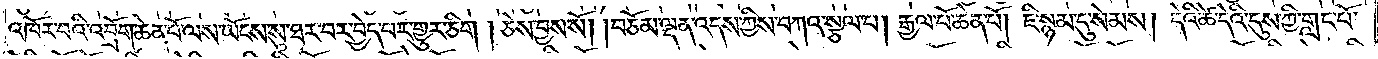འཁོར་བའི་འབྲོག་ཆེན་པོ་ལས་ཡོངས་སུ་ཐར་པར་བྱེད་པར་གྱུར་ཅིག །ཅེས་བྱས་སོ། །བཅོམ་ལྡན་འདས་ཀྱིས་བཀའ་སྩལ་པ། རྒྱལ་པོ་ཆེན་པོ། ཇི་སྙམ་དུ་སེམས། དེའི་ཚེ་དེའི་དུས་ཀྱི་གླང་པོ་
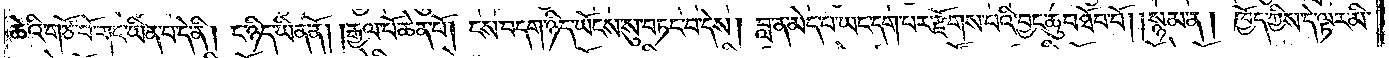ཆེའི་གཙོ་བོ་གང་ཡིན་པ་དེ་ནི། ང་ཉིད་ཡིན་ནོ། །རྒྱལ་པོ་ཆེན་པོ། ངས་བདག་ཉིད་ཡོངས་སུ་བཏང་བ་དེས། བླ་ན་མེད་པ་ཡང་དག་པར་རྫོགས་པའི་བྱང་ཆུབ་ཐོབ་བོ། །སྙམ་ན། ཁྱོད་ཀྱིས་དེ་ལྟར་མི་
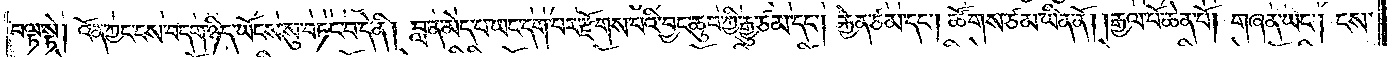བལྟ་སྟེ། འོན་ཀྱང་ངས་བདག་ཉིད་ཡོངས་སུ་བཏང་བ་དེ་ནི། བླ་ན་མེད་པ་ཡང་དག་པར་རྫོགས་པའི་བྱང་ཆུབ་ཀྱི་རྒྱུ་ཙམ་དང༌། རྐྱེན་ཙམ་དང༌། ཚོགས་ཅམ་ཡིན་ནོ། །རྒྱལ་པོ་ཆེན་པོ། གཞན་ཡང༌། ངས་
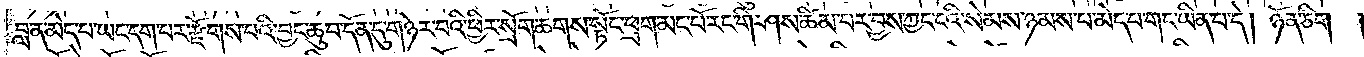བླ་ན་མེད་པ་ཡང་དག་པར་རྫོགས་པའི་བྱང་ཆུབ་དོན་དུ་གཉེར་བའི་ཕྱིར་སྲོག་ཆགས་སྟོང་ཕྲག་མང་པོ་རང་གི་ཤས་ཚིམ་པར་བྱས་ཀྱང་ངའི་སེམས་ཉམས་པ་མེད་པ་གང་ཡིན་པ་དེ། ཉོན་ཅིག །
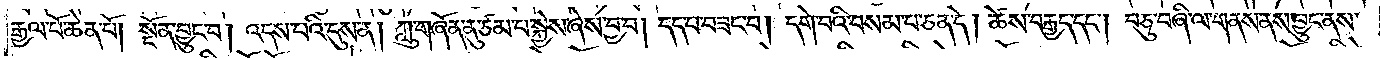རྒྱལ་པོ་ཆེན་པོ། སྔོན་བྱུང་བ། འདས་པའི་དུས་ན། ཀླུ་གཞོན་ནུ་ཙམ་པ་སྐྱེས་ཞེས་བྱ་བ། དང་པ་བཟང་བ། དགེ་བའི་བསམ་པ་ཅན་དེ། ཚེས་བརྒྱད་དང༌། བཅུ་བཞི་ལ་གནས་ནས་བྱུང་ནས་
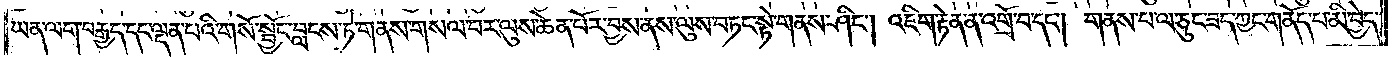ཡན་ལག་བརྒྱད་དང་ལྡན་པའི་གསོ་སྤྱོང་བླངས་ཏེ་གནས་གསལ་བར་ལུས་ཆེན་པོར་བྱས་ནས་ལུས་བཏང་སྟེ་གནས་ཤིང༌། འཇིག་རྟེན་ན་འགྲོ་བ་དང༌། གནས་པ་ལ་ཅུང་ཟད་ཀྱང་གནོད་པ་མི་བྱེད་
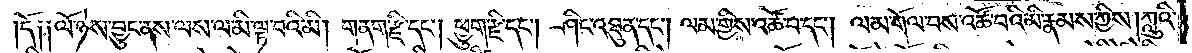དོ། །ལོ་ཉེས་བྱུང་ནས་ལས་ལ་མི་ལྟ་བའི་མི། གནག་རྫི་དང༌། ཕྱུག་རྫི་དང༌། ཤིང་འཐུན་དང༌། ལམ་གྱིས་འཚོ་བ་དང༌། ལམ་གོལ་བས་འཚོ་བའི་མི་རྣམས་ཀྱིས། ཀླུའི་
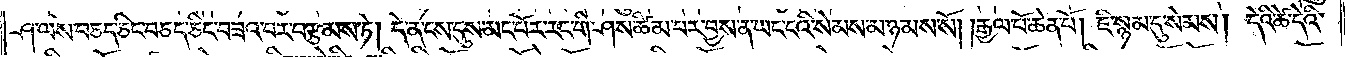ཤ་ལས་བཅད་ཅིང་བཅད་ཅིང་བཟའ་བར་བརྩམས་ཏེ། དེ་ན་ངས་དུས་མང་པོར་རང་གི་ཤས་ཚིམ་པར་བྱས་ན་ཡང་ངའི་སེམས་མ་ཉམས་སོ། །རྒྱལ་པོ་ཆེན་པོ། ཇི་སྙམ་དུ་སེམས། དེའི་ཚེ་དེའི་
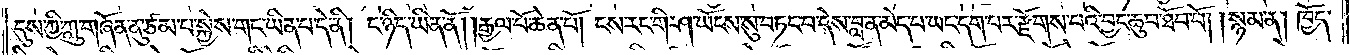དུས་ཀྱི་ཀླུ་གཞོན་ནུ་ཙམ་པ་སྐྱེས་གང་ཡིན་པ་དེ་ནི། ང་ཉིད་ཡིན་ནོ། །རྒྱལ་པོ་ཆེན་པོ། ངས་རང་གི་ཤ་ཡོངས་སུ་བཏང་བ་དེས་བླ་ན་མེད་པ་ཡང་དག་པར་རྫོགས་པའི་བྱང་ཆུབ་ཐོབ་བོ། །སྙམ་ན། ཁྱོད་
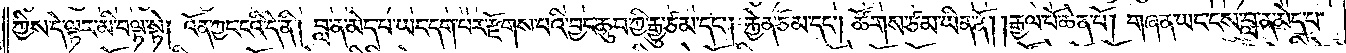ཀྱིས་དེ་ལྟར་མི་བལྟ་སྟེ། འོན་ཀྱང་ངའི་དེ་ནི། བླ་ན་མེད་པ་ཡང་དག་པར་རྫོགས་པའི་བྱང་ཆུབ་ཀྱི་རྒྱུ་ཙམ་དང༌། རྐྱེན་ཙམ་དང༌། ཚོགས་ཙམ་ཡིན་ནོ། །རྒྱལ་པོ་ཆེན་པོ། གཞན་ཡང་ངས་བླ་ན་མེད་པ་
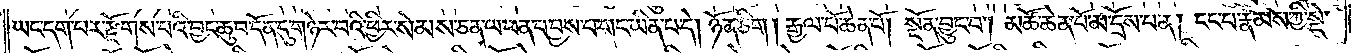ཡང་དག་པར་རྫོགས་པའི་བྱང་ཆུབ་དོན་དུ་གཉེར་བའི་ཕྱིར་སེམས་ཅན་ལ་ཕན་པ་བྱས་པ་གང་ཡིན་པ་དེ། ཉོན་ཅིག །རྒྱལ་པོ་ཆེན་པོ། སྔོན་བྱུང་བ། མཚོ་ཆེན་པོ་མ་དྲོས་པ་ན། ངང་པ་རྣམས་ཀྱི་སྡེ་
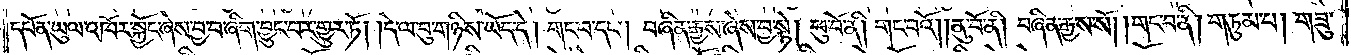དཔོན་ཡུལ་འཁོར་སྐྱོང་ཞེས་བྱ་བ་ཞིག་བྱུང་བར་གྱུར་ཏོ། །དེ་ལ་བུ་གཉིས་ཡོད་དེ། གང་བ་དང༌། བཞིན་རྒྱས་ཞེས་བྱ་སྟེ། ཕུ་བོ་ནི། གང་བའོ། །ནུ་བོ་ནི། བཞིན་རྒྱས་སོ། །གང་བ་ནི། གཏུམ་པ། གཟུ་
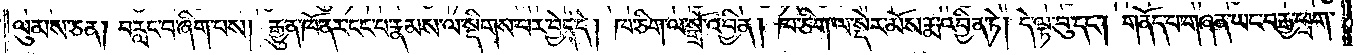ལུམས་ཅན། བརླང་བ་ཞིག་པས། རྒྱུན་ཁོ་ནར་ངང་པ་རྣམས་ལ་སྡིག་པར་བྱེད་དེ། ཁ་ཅིག་ལ་སྒྲོ་འབྱིན། ཁ་ཅིག་ལ་སྡེར་མོས་རྨ་འབྱིན་ཏེ། དེ་ལྟ་བུ་དང༌། གནོད་པ་གཞན་ཡང་བརྒྱ་ཕྲག་
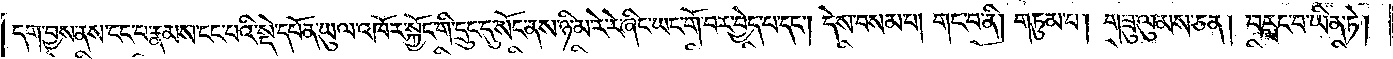དག་བྱས་ནས་ངང་པ་རྣམས་ངང་པའི་སྡེ་དཔོན་ཡུལ་འཁོར་སྐྱོང་གི་དྲུང་དུ་སོང་ནས་ཉི་མ་རེ་རེ་ཞིང་ཡང་གོ་བར་བྱེད་པ་དང༌། དེས་བསམ་པ། གང་བ་ནི། གཏུམ་པ། གཟུ་ལུམས་ཅན། བརླང་པ་ཡིན་ཏེ།
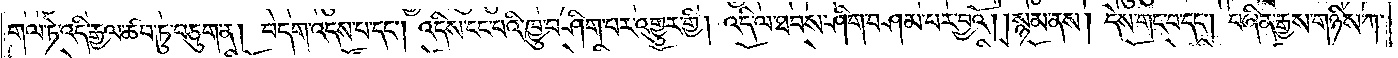གལ་ཏེ་འདི་རྒྱལ་ཚབ་ཏུ་བཅུག་ན། བདག་འདས་པ་དང༌། འདིས་ངང་པའི་ཁྱུ་བཤིག་པར་འགྱུར་གྱི། འདི་ལ་ཐབས་ཤིག་བཤམ་པར་བྱའོ། །སྙམ་ནས། དེས་གང་བ་དང༌། བཞིན་རྒྱས་གཉིས་ཀ་
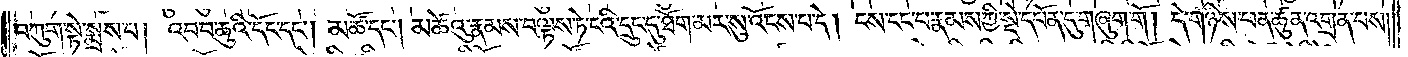བཀུག་སྟེ་སྨྲས་པ། འབབ་ཆུའི་དོང་དང༌། མཚོ་དང༌། མཚེའུ་རྣམས་བལྟས་ཏེ་ངའི་དྲུང་དུ་ཐོག་མར་སུ་འོངས་པ་དེ། ངས་ངང་པ་རྣམས་ཀྱི་སྡེ་དཔོན་དུ་གཞུག་གོ། དེ་གཉིས་ཕན་ཚུན་འགྲན་པས་
